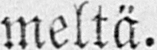meltä.
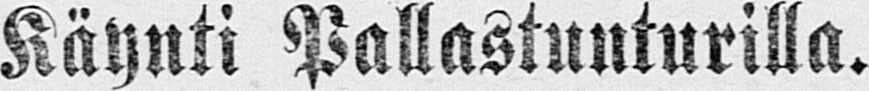Käynti Pallastunturilla.
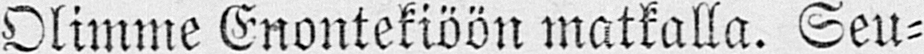Olimme Enontekiöön matkalla. Seu-
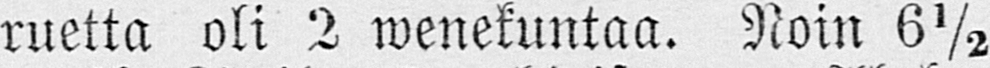ruetta oli 2 wenekuntaa. Noin 6½
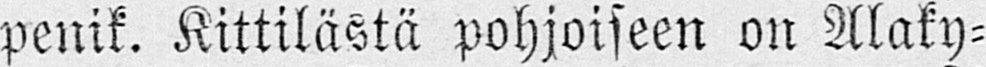penik. Kittilästä pohjoiseen on Alaky-
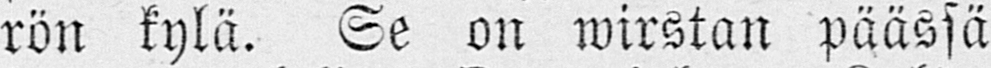rön kylä. Se on wirstan päässä
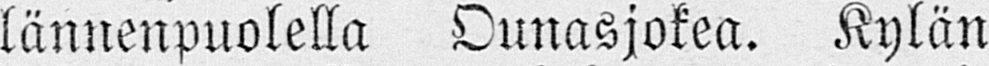lännenpuolella Ounasjokea. Kylän
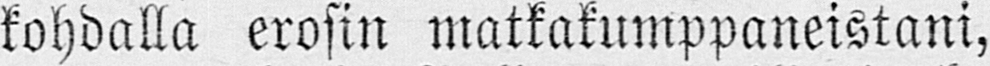kohdalla erosin matkakumppaneistani,
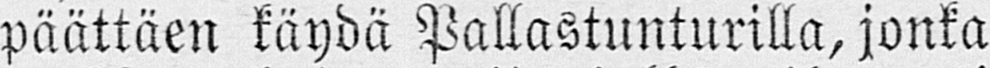päättäen käydä Pallastunturilla, jonka
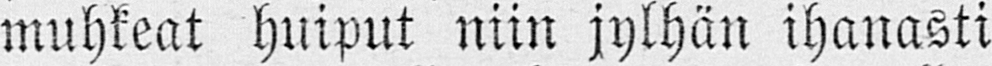muhkeat huiput niin jylhän ihanasti
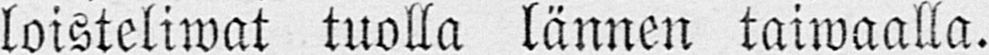loisteliwat tuolla lännen taiwaalla.
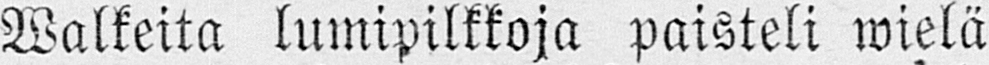Walkeita lumipilkkoja paisteli wielä
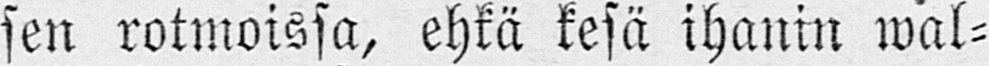sen rotmoissa, ehkä kesä ihanin wal-
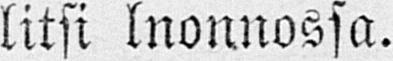litsi lnonnossa.
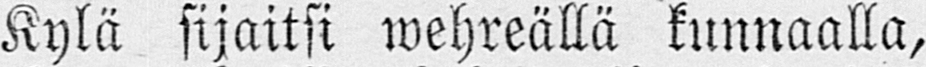Kylä sijaitsi wehreällä kunnaalla,
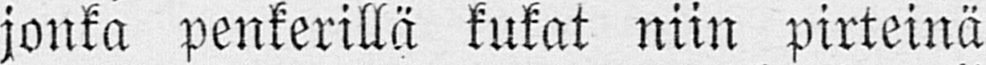jonka penkerillä kukat niin pirteinä
